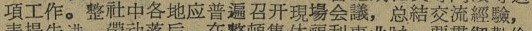項工作。整社中各地应普遍召开現場会議，总結交流經驗，
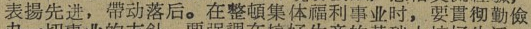表揚先进，带动落后。在整頓集体福利事业时，要貫彻勤儉
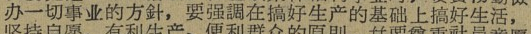办一切事业的方針，要强調在搞好生产的基础上搞好生活，
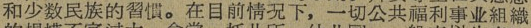和少数民族的習慣。在目前情况下，一切公共福利事业組織
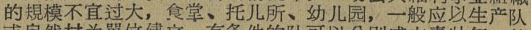的規模不宜过大，食堂、托儿所、幼儿园，一般应以生产队
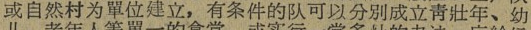或自然村为單位建立，有条件的队可以分別成立靑壮年、幼
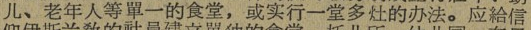儿，老年人等單一的食堂，或实行一堂多灶的办法。应給信
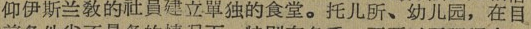仰伊斯兰敎的社員建立單独的食堂。托儿所、幼儿园，在目
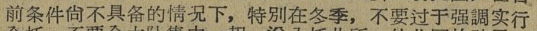前条件尚不具备的情况下，特別在冬季，不要过于强調实行
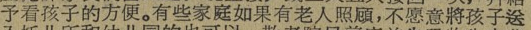予看孩子的方便。有些家庭如果有老人照顾，不愿意將孩子送
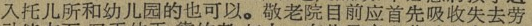入托儿所和幼儿园的也可以。敬老院目前应首先吸收失去劳
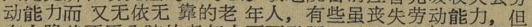动能力而 又无依无靠的老年人，有些虽丧失劳动能力，但
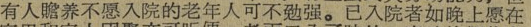有人贍养不愿入院的老年人可不勉强。已入院者如晚上愿在
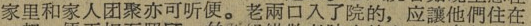家里和家人团聚亦可听便。老兩口住了院的，应讓他們住在
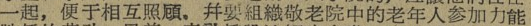一起，便于相互照顾。并要組織敬老院中的老年人参加力能
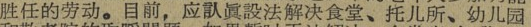胜任的劳动。目前，应认眞設法解决食堂、托儿所、幼儿园
